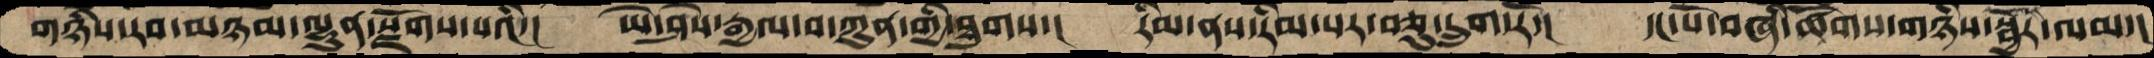གཉིས་རབ་མཉམ་ལྷུན་སྫོགས་པའི་།  ཡེ་ཤེས་རྒྱལ་བ་ཀུན་གྱི་ཐུགས་།    རིམ་ནས་རིམ་པར་བཅུ་དྲུག་རོ་།   དང་པོ་བཞི་ཚོགས་གཉིས་སྦྱོར་ལམ་།
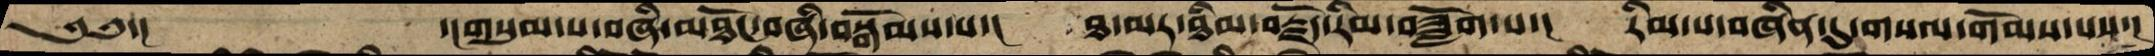༄༅་།           ་།གསུམ་པ་བཞི་མཐོང་བཞི་བསྒོམས་པ་།   ཐ་མར་ཐིམ་བརྗོད་རིམ་བཟློག་པ་།   རིམ་པ་བཞིན་དུ་གསལ་གོམས་པས་།
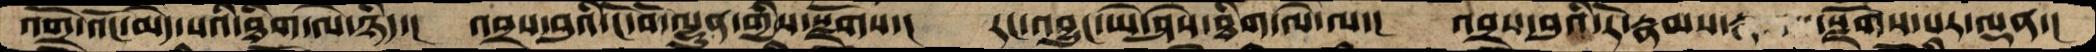འགྲོ་འོང་མེད་པའི་ཐིག་ལེ་ཉིད་།  འབྲས་བུའི་ངོ་བོ་ལྷུན་གྱིས་སྫོོགས་།    རང་འབྱུང་ཡེ་ཤེས་ཐིག་ལེ་ལ་།   འབྲས་བུའི་རེ་རྣམས་    སྫོགས་པར་ལྡན་།
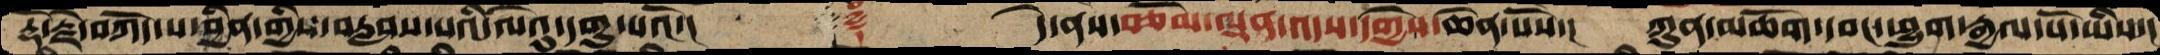རྡོ་རྗེ་བཀོད་པ་བྱིན་གྱིས་བརླབས་པའི་ལེའུ་དགུ་པའོ་།   ࿑     དེ་ནས་བཅོམ་ལྡན་འདས་དགྱེས་ཆེན་པོས་།  ཀུན་མཆོག་དབང་ཕྱུག་རྒྱལ་པོ་ཡིས་།
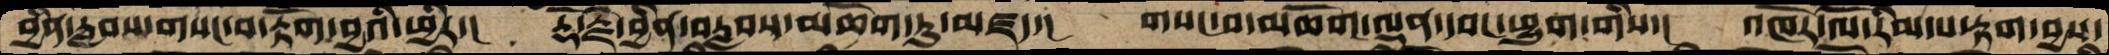བྱིན་རླབས་གསང་བ་རྟོག་བྱའི་ཕྱིར་།  རྡོ་རྗེ་བྱིན་བརླབས་མཆོག་ཏུ་མཛད་།  གསང་བ་མཆོག་ལྡན་དབང་ཕྱུག་གིས་།  འཁོར་ལོ་རིམ་པ་རྟག་བྱས་
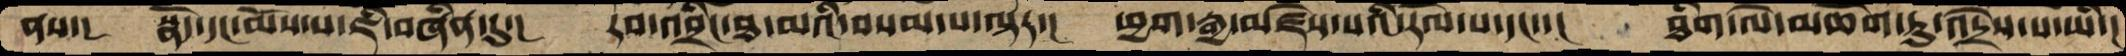ནས་།  སྣོད་དང་མོས་པ་ཇི་བཞིན་དུ་།  རབ་འབྲིང་ཐ་མའི་བསམ་པ་ལྟར་།  ཕྱག་རྒྱ་མཛེས་པའི་རོལ་པ་དང་།  ཐིག་ལེ་མཆོག་ཏུ་འདྲེས་པ་ཡི་།
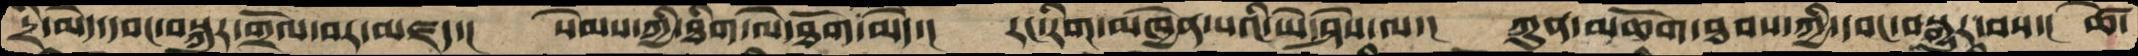དྲི་མེད་དབང་བསྐུར་གྲོལ་བར་མཛད་།  སེམས་ཀྱི་ཐིག་ལེ་ཐོག་མེད་།  རང་རིག་མཁྱེན་པའི་ཡེ་ཤེས་ལ་།  ཀུན་མཆོག་ཐབས་ཀྱི་དབང་བསྐུར་བས་།  ཚེ་
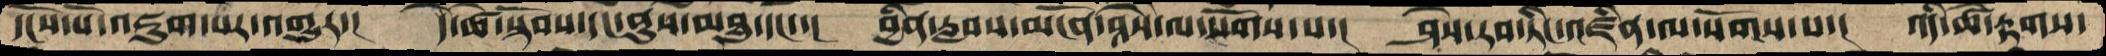དངོས་པོ་འཇུག་པར་འགྱུར་།   དེ་ཚེ་སྟོབས་དང་ནུས་མཐུ་དང་་།   བྱིན་རླབས་མངོན་ཤེས་ལ་སོགས་པ་།  ཤེས་རབ་ཏིང་འཛིན་ལ་སོགས་པ་།  འདི་ཚེ་རྟགས་
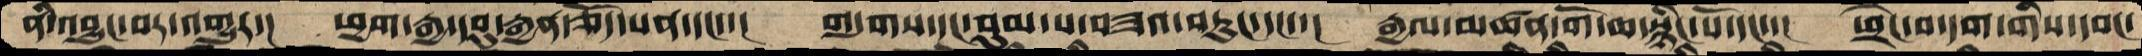ནི་འབྱུང་བར་འགྱུར་།   ཕྱག་རྒྱ་དབུ་རྒྱན་ཅོད་པན་དང་་།   གདུགས་དང་བུམ་པ་བཟའ་བཏུང་དང་་།  རྒྱལ་མཚན་གོ་ཆ་སྙིང་པོ་དང་་།  ཕྲེང་བ་དག་གིས་དབང་
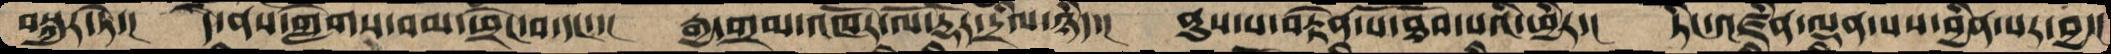བསྐུར་ཏེ་།   དེ་ནས་གླེགས་བམ་ཕྲེང་བ་དང་་།   རྒྱ་གྲམ་འཁོར་ལོ་རྡོར་དྲིལ་ཉིད་།  ནུས་པ་བརྟེན་པོ་ཐོབ་པའི་ཕྱིར་།  ཏིང་འཛིན་ལྡན་པས་བྱིན་པར་བྱ་།
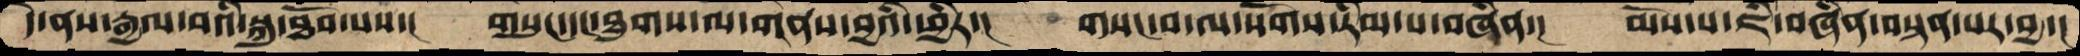དེ་ནས་རྒྱལ་བའི་སྐུ་ཐོབ་པས་།  གསུང་དང་ཐུགས་ལ་གནས་བྱའི་ཕྱིར་།  གསང་བ་ལ་སོགས་རིམ་པ་བཞིན་།  མོས་པ་ཇི་བཞིན་བསྟན་པར་བྱ་།
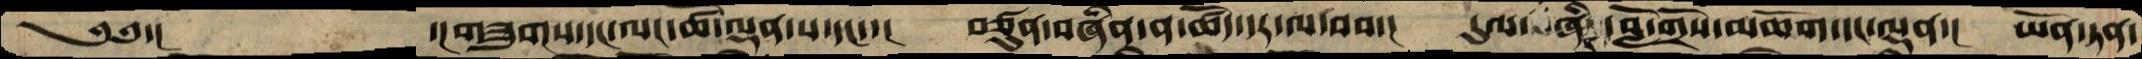༄༅་།               ་། གཟུགས་དང་ལང་ཚོ་ལྡན་པ་དང་་།  བཙུན་བཞིན་ན་ཚོད་དར་ལ་བབ་།  དུལ་ཞི་བློ་གྲོས་མཆོག་དང་ལྡན་།  ཡོན་ཏན་
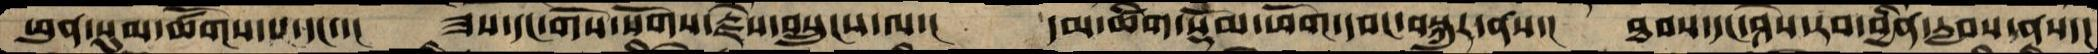ཕུན་སུམ་ཚོགས་པ་དང་་།  ཟས་དང་གོས་སོགས་རྗེས་བསྲུངས་ལ་།  དམ་ཚིག་སྡོམ་ཕོག་དབང་བསྐུར་ནས་།  ཐབས་དང་ཤེས་རབ་བྱིན་རླབས་ནས་།
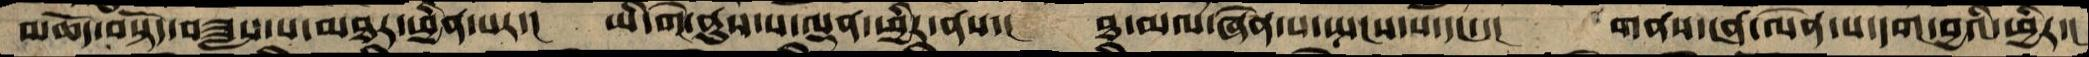མཆོད་བསྟོད་བཟླས་པ་མཐར་ཕྱིན་པར་།  ཡི་གེ་ནུས་པ་ལྡན་ཕྱིར་ནས་།  ཐ་མལ་ཞེན་པ་སྤངས་པ་དང་་།  གནས་ངན་ལེན་པ་དག་བྱའི་ཕྱིར་།
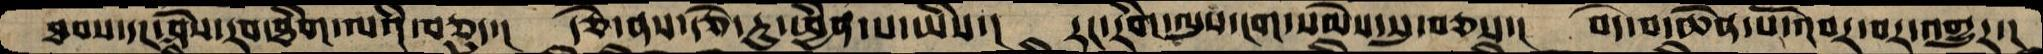ཐབས་དང་ཤེས་རབ་ཐིག་ལའི་བཅུ་།  རྩེ་ནས་རྩ་རུ་ཕྱིན་པ་ཡིས་།  རང་རིག་ལུས་ངག་སེམས་སུ་བཅས་།  བདེ་བ་ཆེན་པོ་འབར་བར་འགྱུར་།
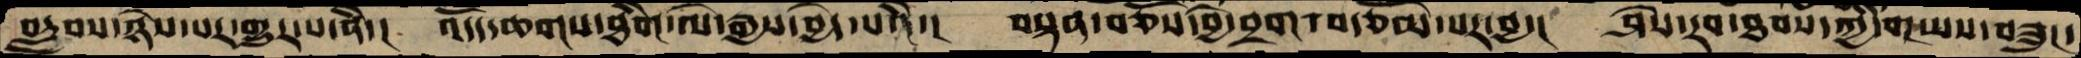བརླབས་ཉེས་པར་གྱུར་པ་ནི་།  འདོད་ཆགས་ཐིག་ལེ་རྒྱས་བྱེད་པའི་།  བསྟན་བཅོས་བྱེ་བྲག་བརྩོམ་པར་བྱ་།  ཤེས་རབ་ཐབས་ཀྱི་གཡས་བཟུང་
